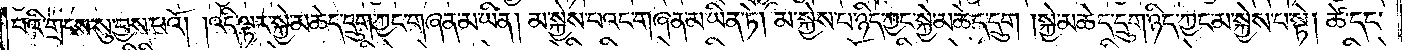པའི་གྲངས་སུ་བྱས་པའོ། །འདི་ལྟར་སྐྱེ་མཆེད་དྲུག་ཀྱང་གཞན་མ་ཡིན། མ་སྐྱེས་པའང་གཞན་མ་ཡིན་ཏེ། མ་སྐྱེས་པ་ཉིད་ཀྱང་སྐྱེ་མཆེད་དྲུག །སྐྱེ་མཆེད་དྲུག་ཉིད་ཀྱང་མ་སྐྱེས་པ་སྟེ། ཚེ་དང་
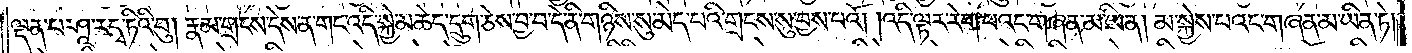ལྡན་པ་ཤཱ་ར་དྭ་ཏིའི་བུ། རྣམ་གྲངས་དེས་ན་གང་འདི་སྐྱེ་མཆེད་དྲུག་ཅེས་བྱ་བ་དེ་ནི་གཉིས་སུ་མེད་པའི་གྲངས་སུ་བྱས་པའོ། །འདི་ལྟར་རེག་པའང་གཞན་མ་ཡིན། མ་སྐྱེས་པའང་གཞན་མ་ཡིན་ཏེ།
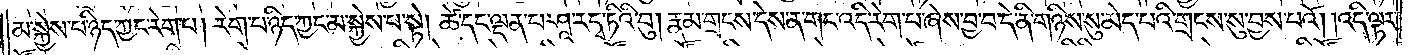མ་སྐྱེས་པ་ཉིད་ཀྱང་རེག་པ། རེག་པ་ཉིད་ཀྱང་མ་སྐྱེས་པ་སྟེ། ཚེ་དང་ལྡན་པ་ཤཱ་ར་དྭ་ཏིའི་བུ། རྣམ་གྲངས་དེས་ན་གང་འདི་རེག་པ་ཞེས་བྱ་བ་དེ་ནི་གཉིས་སུ་མེད་པའི་གྲངས་སུ་བྱས་པའོ། །འདི་ལྟར་
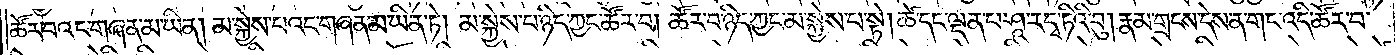ཚོར་བའང་གཞན་མ་ཡིན། མ་སྐྱེས་པའང་གཞན་མ་ཡིན་ཏེ། མ་སྐྱེས་པ་ཉིད་ཀྱང་ཚོར་བ། ཚོར་བ་ཉིད་ཀྱང་མ་སྐྱེས་པ་སྟེ། ཚེ་དང་ལྡན་པ་ཤཱ་ར་དྭ་ཏིའི་བུ། རྣམ་གྲངས་དེས་ན་གང་འདི་ཚོར་བ་
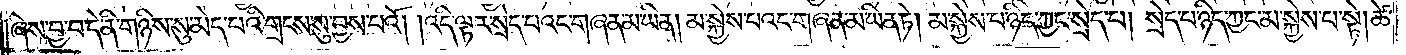ཞེས་བྱ་བ་དེ་ནི་གཉིས་སུ་མེད་པའི་གྲངས་སུ་བྱས་པའོ། །འདི་ལྟར་སྲེད་པའང་གཞན་མ་ཡིན། མ་སྐྱེས་པའང་གཞན་མ་ཡིན་ཏེ། མ་སྐྱེས་པ་ཉིད་ཀྱང་སྲེད་པ། སྲེད་པ་ཉིད་ཀྱང་མ་སྐྱེས་པ་སྟེ། ཚེ་
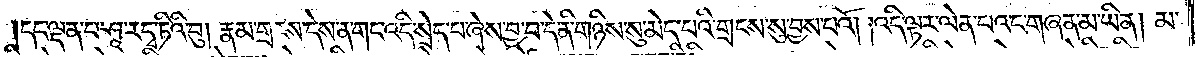དང་ལྡན་པ་ཤཱ་ར་དྭ་ཏིའི་བུ། རྣམ་གྲངས་དེས་ན་གང་འདི་སྲེད་པ་ཞེས་བྱ་བ་དེ་ནི་གཉིས་སུ་མེད་པའི་གྲངས་སུ་བྱས་པའོ། །འདི་ལྟར་ལེན་པའང་གཞན་མ་ཡིན། མ་
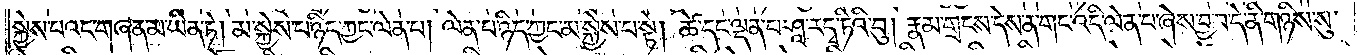སྐྱེས་པའང་གཞན་མ་ཡིན་ཏེ། མ་སྐྱེས་པ་ཉིད་ཀྱང་ལེན་པ། ལེན་པ་ཉིད་ཀྱང་མ་སྐྱེས་པ་སྟེ། ཚེ་དང་ལྡན་པ་ཤཱ་ར་དྭ་ཏིའི་བུ། རྣམ་གྲངས་དེས་ན་གང་འདི་ལེན་པ་ཞེས་བྱ་བ་དེ་ནི་གཉིས་སུ་
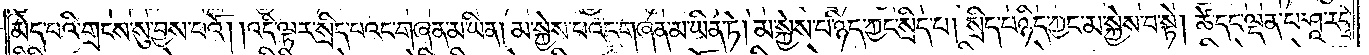མེད་པའི་གྲངས་སུ་བྱས་པའོ། །འདི་ལྟར་སྲིད་པའང་གཞན་མ་ཡིན། མ་སྐྱེས་པའང་གཞན་མ་ཡིན་ཏེ། མ་སྐྱེས་པ་ཉིད་ཀྱང་སྲིད་པ། སྲིད་པ་ཉིད་ཀྱང་མ་སྐྱེས་པ་སྟེ། ཚེ་དང་ལྡན་པ་ཤཱ་ར་དྭ་
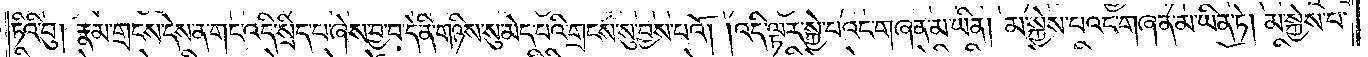ཏིའི་བུ། རྣམ་གྲངས་དེས་ན་གང་འདི་སྲིད་པ་ཞེས་བྱ་བ་དེ་ནི་གཉིས་སུ་མེད་པའི་གྲངས་སུ་བྱས་པའོ། །འདི་ལྟར་སྐྱེ་བའང་གཞན་མ་ཡིན། མ་སྐྱེས་པའང་གཞན་མ་ཡིན་ཏེ། མ་སྐྱེས་པ་
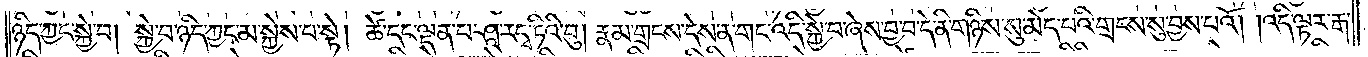ཉིད་ཀྱང་སྐྱེ་བ། སྐྱེ་བ་ཉིད་ཀྱང་མ་སྐྱེས་པ་སྟེ། ཚེ་དང་ལྡན་པ་ཤཱ་ར་དྭ་ཏིའི་བུ། རྣམ་གྲངས་དེས་ན་གང་འདི་སྐྱེ་བ་ཞེས་བྱ་བ་དེ་ནི་གཉིས་སུ་མེད་པའི་གྲངས་སུ་བྱས་པའོ། །འདི་ལྟར་རྒ་
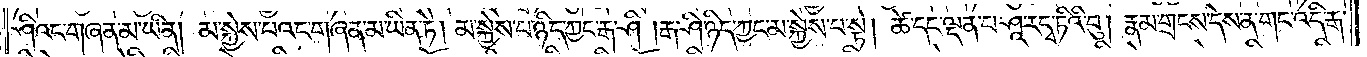ཤིའང་གཞན་མ་ཡིན། མ་སྐྱེས་པའང་གཞན་མ་ཡིན་ཏེ། མ་སྐྱེས་པ་ཉིད་ཀྱང་རྒ་ཤི་།རྒ་ཤི་ཉིད་ཀྱང་མ་སྐྱེས་པ་སྟེ། ཚེ་དང་ལྡན་པ་ཤཱ་ར་དྭ་ཏིའི་བུ། རྣམ་གྲངས་དེས་ན་གང་འདི་རྒ་
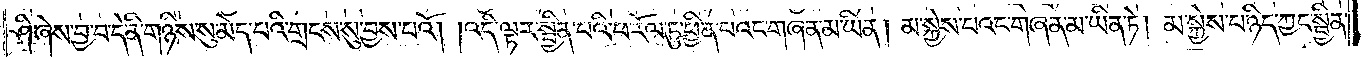ཤི་ཞེས་བྱ་བ་དེ་ནི་གཉིས་སུ་མེད་པའི་གྲངས་སུ་བྱས་པའོ། །འདི་ལྟར་སྦྱིན་པའི་ཕ་རོལ་ཏུ་ཕྱིན་པའང་གཞན་མ་ཡིན། མ་སྐྱེས་པའང་གཞན་མ་ཡིན་ཏེ། མ་སྐྱེས་པ་ཉིད་ཀྱང་སྦྱིན་
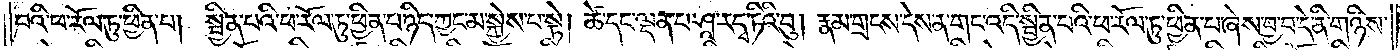པའི་ཕ་རོལ་ཏུ་ཕྱིན་པ། སྦྱིན་པའི་ཕ་རོལ་ཏུ་ཕྱིན་པ་ཉིད་ཀྱང་མ་སྐྱེས་པ་སྟེ། ཚེ་དང་ལྡན་པ་ཤཱ་ར་དྭ་ཏིའི་བུ། རྣམ་གྲངས་དེས་ན་གང་འདི་སྦྱིན་པའི་ཕ་རོལ་ཏུ་ཕྱིན་པ་ཞེས་བྱ་བ་དེ་ནི་གཉིས་
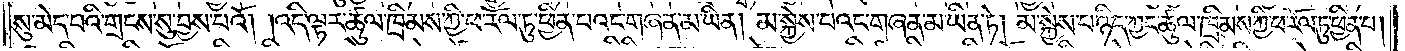སུ་མེད་པའི་གྲངས་སུ་བྱས་པའོ། །འདི་ལྟར་ཚུལ་ཁྲིམས་ཀྱི་ཕ་རོལ་ཏུ་ཕྱིན་པའང་གཞན་མ་ཡིན། མ་སྐྱེས་པའང་གཞན་མ་ཡིན་ཏེ། མ་སྐྱེས་པ་ཉིད་ཀྱང་ཚུལ་ཁྲིམས་ཀྱི་ཕ་རོལ་ཏུ་ཕྱིན་པ་
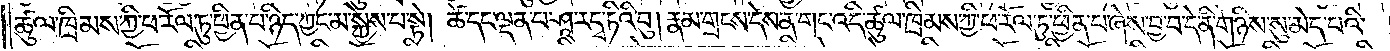ཚུལ་ཁྲིམས་ཀྱི་ཕ་རོལ་ཏུ་ཕྱིན་པ་ཉིད་ཀྱང་མ་སྐྱེས་པ་སྟེ། ཚེ་དང་ལྡན་པ་ཤཱ་ར་དྭ་ཏིའི་བུ། རྣམ་གྲངས་དེས་ན་གང་འདི་ཚུལ་ཁྲིམས་ཀྱི་ཕ་རོལ་ཏུ་ཕྱིན་པ་ཞེས་བྱ་བ་དེ་ནི་གཉིས་སུ་མེད་པའི་
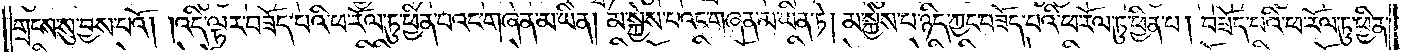གྲངས་སུ་བྱས་པའོ། །འདི་ལྟར་བཟོད་པའི་ཕ་རོལ་ཏུ་ཕྱིན་པའང་གཞན་མ་ཡིན། མ་སྐྱེས་པའང་གཞན་མ་ཡིན་ཏེ། མ་སྐྱེས་པ་ཉིད་ཀྱང་བཟོད་པའི་ཕ་རོལ་ཏུ་ཕྱིན་པ། བཟོད་པའི་ཕ་རོལ་ཏུ་ཕྱིན་
